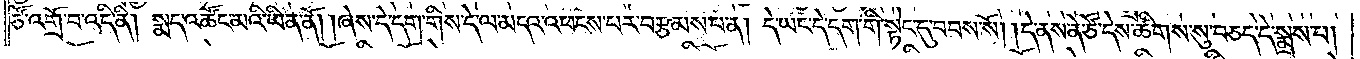ཙོ་འགྲོ་བ་འདི་ནི། སྨད་འཚོང་མའི་ཡིན་ནོ། །ཞེས་དེ་དག་གིས་དེ་ལ་མདའ་འཕངས་པར་བརྩམས་པ་ན། དེ་ཡང་དེ་དག་གི་སྟེང་དུ་བབས་སོ། །དེ་ནས་ནེ་ཙོ་དེས་ཚིགས་སུ་བཅད་དེ་སྨྲས་པ།
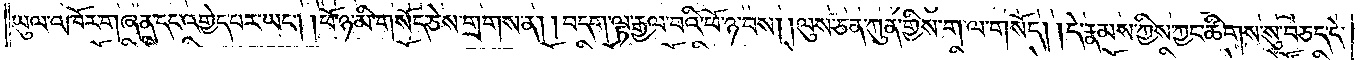ཡུལ་འཁོར་གཞན་དང་འགྱེད་པར་ཡང༌། །ཕོ་ཉ་མི་གསོད་ཅེས་གྲགས་ན། བདག་ལྟ་རྒྱལ་བའི་ཕོ་ཉ་བས། ལུས་ཅན་ཀུན་གྱིས་ག་ལ་གསོད། །དེ་རྣམས་ཀྱིས་ཀྱང་ཚིགས་སུ་བཅད་དེ་
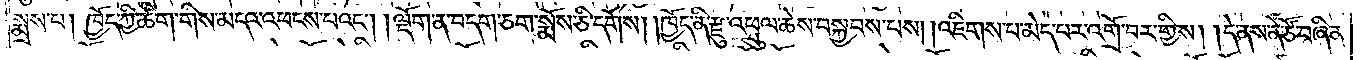སྨྲས་པ། ཁྱོད་ཀྱི་ཚིག་གིས་མདའ་འཕངས་པའང༌། །ལྡོག་ན་བདག་ཅག་སྨོས་ཅི་དགོས། །ཁྱོད་ནི་རྫུ་འཕྲུལ་ཆེས་བསྐྱབས་པས། །འཇིགས་པ་མེད་པར་འགྲོ་བར་གྱིས། །དེ་ནས་ནེ་ཙོ་བཞིན་
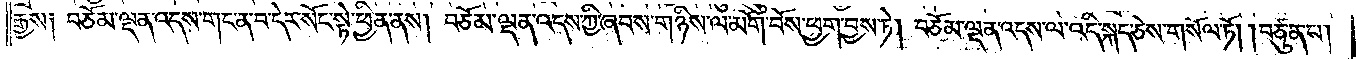རྒྱས། བཅོམ་ལྡན་འདས་གང་ན་བ་དེར་སོང་སྟེ་ཕྱིན་ནས། བཅོམ་ལྡན་འདས་ཀྱི་ཞབས་གཉིས་ལ་མགོ་བོས་ཕྱག་བྱས་ཏེ། བཅོམ་ལྡན་འདས་ལ་འདི་སྐད་ཅེས་གསོལ་ཏོ། །བཙུན་པ།
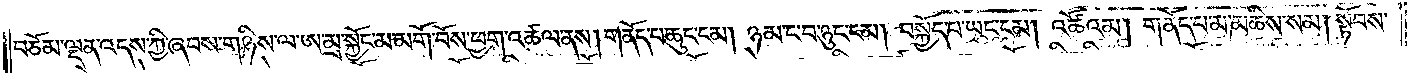བཅོམ་ལྡན་འདས་ཀྱི་ཞབས་གཉིས་ལ་ཨ་མྲ་སྐྱོང་མ་མགོ་བོས་ཕྱག་འཚལ་ནས། གནོད་པ་ཆུང་ངམ། ཉམ་ང་པ་ཉུང་ངམ། བསྐྱོད་པ་ཡང་ངམ། འཚོའམ། གནོད་པ་མ་མཆིས་སམ། སྟོབས་
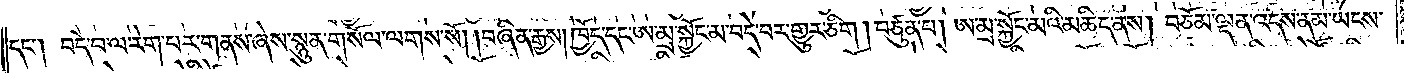དང༌། བདེ་བ་ལ་རེག་པར་གནས་ཞེས་སྙུན་གསོལ་ལགས་སོ། །བཞིན་རྒྱས། ཁྱོད་དང་ཨ་མྲ་སྐྱོང་མ་བདེ་བར་གྱུར་ཅིག །བཙུན་པ། ཨ་མྲ་སྐྱོང་མའི་མཆིད་ནས། བཅོམ་ལྡན་འདས་ནམ་ཡངས་
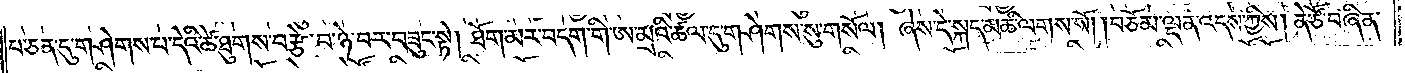པ་ཅན་དུ་གཤེགས་པ་དེའི་ཚེ་ཐུགས་བརྩེ་བ་ཉེ་བར་བཟུང་སྟེ། ཐོག་མར་བདག་གི་ཨ་མྲའི་ཚལ་དུ་གཤེགས་སུ་གསོལ། །ཞེས་དེ་སྐད་མཆི་ལགས་སོ། །བཅོམ་ལྡན་འདས་ཀྱིས། ནེ་ཙོ་བཞིན་
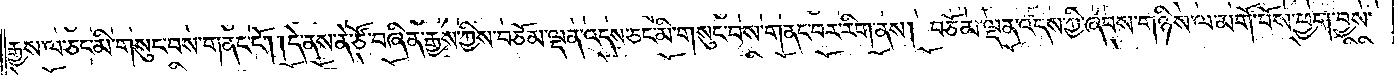རྒྱས་ལ་ཅང་མི་གསུང་བས་གནང་ངོ༌། །དེ་ནས་ནེ་ཙོ་བཞིན་རྒྱས་ཀྱིས་བཅོམ་ལྡན་འདས་ཅང་མི་གསུང་བས་གནང་བར་རིག་ནས། བཅོམ་ལྡན་འདས་ཀྱི་ཞབས་གཉིས་ལ་མགོ་བོས་ཕྱག་བྱས་
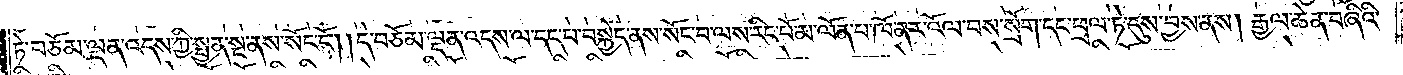ཏེ་བཅོམ་ལྡན་འདས་ཀྱི་སྤྱན་སྔ་ནས་སོང་ངོ༌། །དེ་བཅོམ་ལྡན་འདས་ལ་དད་པ་བསྐྱེད་ནས་སོང་བ་ལས་རིང་པོ་མ་ལོན་པ་ཁོ་ནར་འོལ་བས་སྲོག་དང་ཕྲལ་ཏེ་དུས་བྱས་ནས། རྒྱལ་ཆེན་བཞིའི་
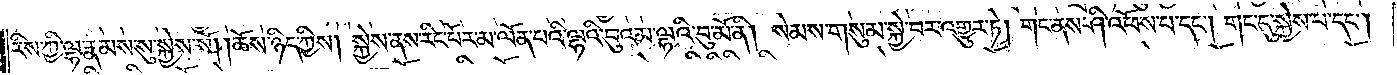རིས་ཀྱི་ལྷ་རྣམས་སུ་སྐྱེས་སོ། །ཆོས་ཉིད་ཀྱིས། སྐྱེས་ནས་རིང་པོར་མ་ལོན་པའི་ལྷའི་བུའམ་ལྷའི་བུ་མོ་ནི། སེམས་གསུམ་སྐྱེ་བར་འགྱུར་ཏེ། གང་ནས་ཤི་འཕོས་པ་དང༌། གང་དུ་སྐྱེས་པ་དང༌།
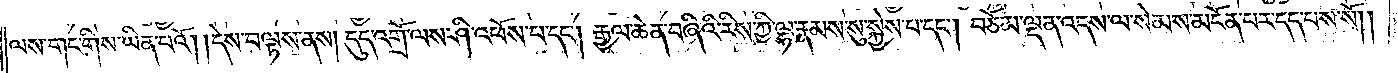ལས་གང་གིས་ཡིན་པའོ། །དེས་བལྟས་ནས། དུད་འགྲོ་ལས་ཤི་འཕོས་པ་དང༌། རྒྱལ་ཆེན་བཞིའི་རིས་ཀྱི་ལྷ་རྣམས་སུ་སྐྱེས་པ་དང༌། བཅོམ་ལྡན་འདས་ལ་སེམས་མངོན་པར་དད་པས་སོ། །
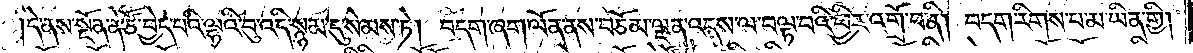དེ་ནས་སྔོན་ནེ་ཙོ་བྱེད་པའི་ལྷའི་བུ་འདི་སྙམ་དུ་སེམས་ཏེ། བདག་ཞག་ལོན་ནས་བཅོམ་ལྡན་འདས་ལ་བལྟ་བའི་ཕྱིར་འགྲོ་བ་ནི། བདག་རིགས་པ་མ་ཡིན་གྱི།
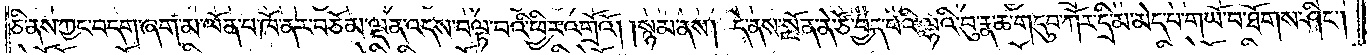ཅི་ནས་ཀྱང་བདག་ཞག་མ་ལོན་པ་ཁོ་ནར་བཅོམ་ལྡན་འདས་བལྟ་བའི་ཕྱིར་འགྲོའོ། །སྙམ་ནས། དེ་ནས་སྔོན་ནེ་ཙོ་བྱེད་པའི་ལྷའི་བུ་རྣ་ཆ་གདུབ་ཀོར་དྲི་མ་མེད་པ་གཡོ་བ་ཐོགས་ཤིང༌།
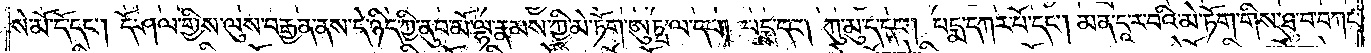སེ་མོ་དོ་དང༌། དོ་ཤལ་གྱིས་ལུས་བརྒྱན་ནས་དེ་ཉིད་ཀྱི་ནུབ་མོ་ལྷ་རྣམས་ཀྱི་མེ་ཏོག་ཨུཏྤ་ལ་དང༌། པདྨ་དང༌། ཀུ་མུ་ད་དང༌། པདྨ་དཀར་པོ་དང༌། མན་དཱ་ར་བའི་མེ་ཏོག་གིས་ཐུ་བ་བཀང་
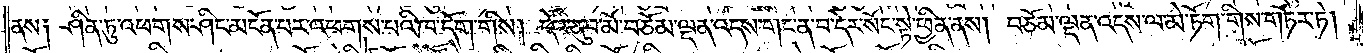ནས༑ ཤིན་ཏུ་འཕགས་ཤིང་མངོན་པར་འཕགས་པའི་ཁ་དོག་གིས། དེའི་ནུབ་མོ་བཅོམ་ལྡན་འདས་གང་ན་བ་དེར་སོང་སྟེ་ཕྱིན་ནས། བཅོམ་ལྡན་འདས་ལ་མེ་ཏོག་གིས་གཏོར་ཏེ།
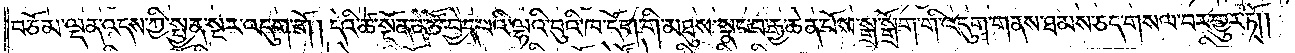བཅོམ་ལྡན་འདས་ཀྱིས་སྤྱན་སྔར་འདུག་གོ། །དེའི་ཚེ་སྔོན་ནེ་ཙོ་བྱེད་པའི་ལྷའི་བུའི་ཁ་དོག་གི་མཐུས་སྣང་བ་རྒྱ་ཆེན་པོས་སྒྲ་སྒྲོག་གི་འདུག་གནས་ཐམས་ཅད་གསལ་བར་གྱུར་ཏོ། །
